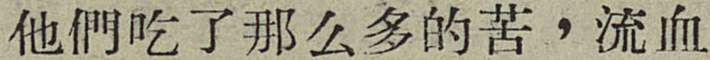他們吃了那么多的苦，流血
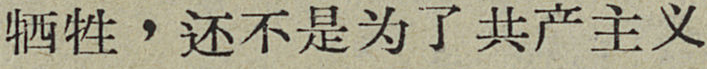牺牲，还不是为了共产主义
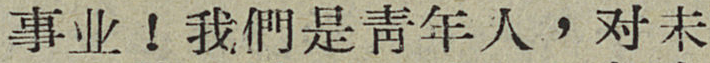事业！我們是靑年人，对未
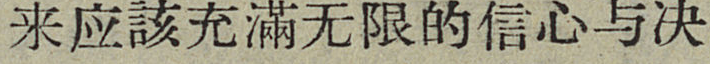来应該充滿无限的信心与决
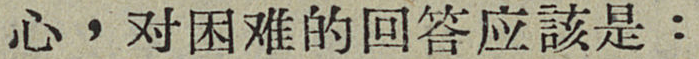心，对困难的回答应該是：
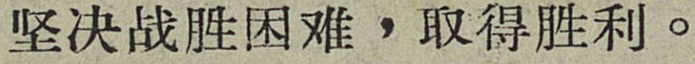坚决战胜困难，取得胜利。
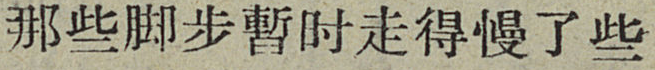那些脚步暫时走得慢了些
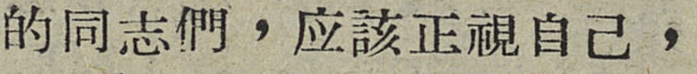的同志們，应該正視自己，
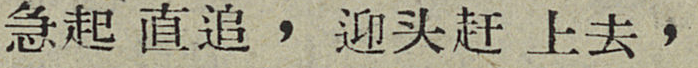急起直追，迎头赶上去，
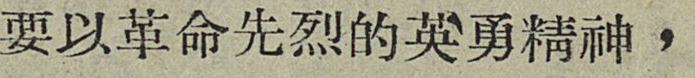要以革命先烈的英勇精神，
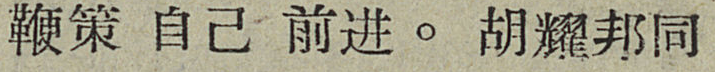鞭策自己前进。胡耀邦同
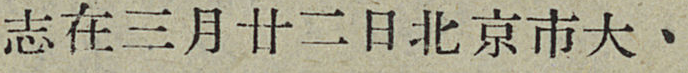志在三月廿二日北京市大、
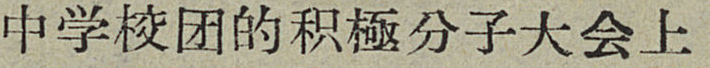中学校团的积極分子大会上
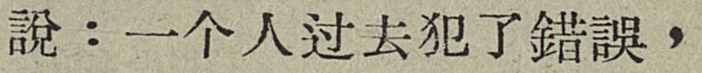說：一个人过去犯了錯誤，
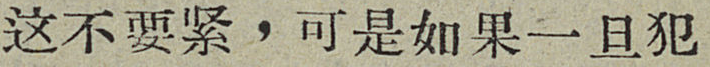这不要紧，可是如果一旦犯
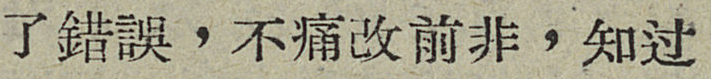了錯誤，不痛改前非，知过
